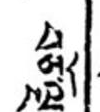བཅོ་ལྔ་
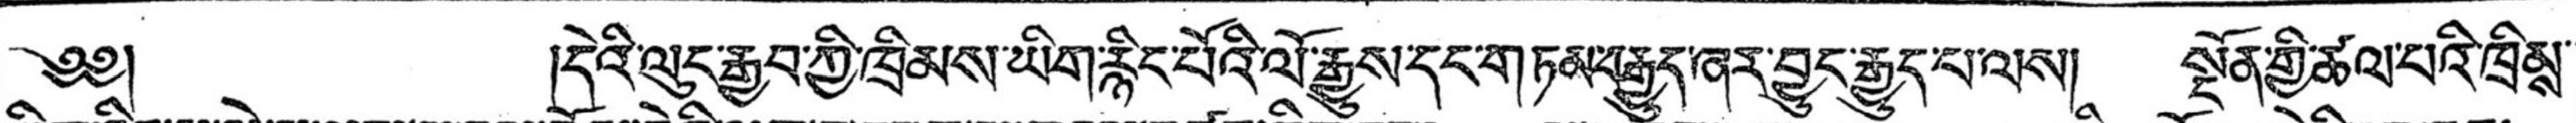༄༅། །དེའི་ལུང་རྒྱབ་ཀྱི་ཁྲིམས་ཡིག་རྙིང་པོའི་ལོ་རྒྱུས་དང་གཏམ་རྒྱུད་ཞར་བྱུང་རྒྱུད་པ་ལས། སྔོན་གྱི་ཚལ་པའི་ཁྲིམས་་
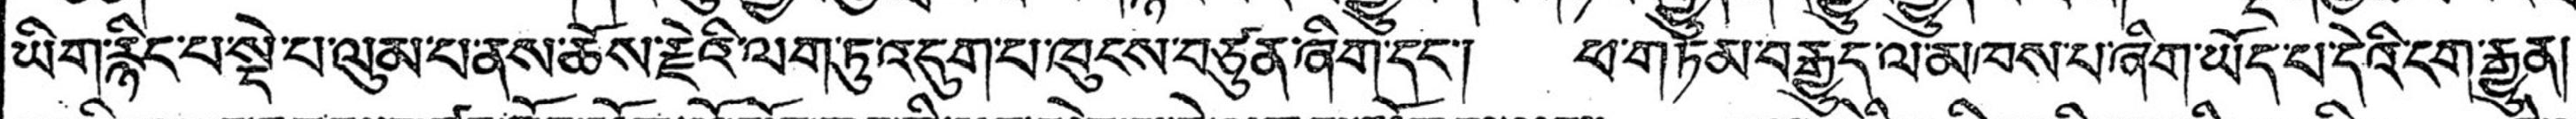ཡིག་རྙིང་པ་སྡེ་པ་ལུམ་པ་ནས་ཆོས་རྗེའི་ལག་ཏུ་འདུག་པ་ཁུངས་བཙུན་ཞིག་དང་། ཕ་གཏམ་བརྒྱུད་ལ་མཁས་པ་ཞིག་ཡོད་པ་དེའི་ངག་རྒྱུན།
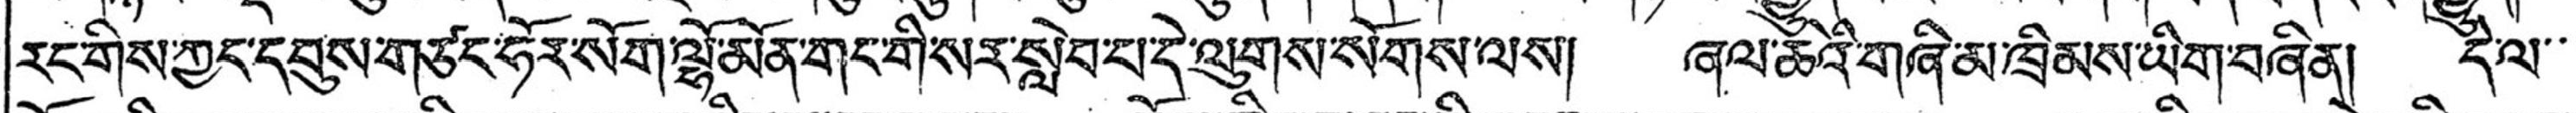རང་གིས་ཀྱང་དབུས་གཙང་ཧོར་སོག་ལྷོ་མོན་གང་གི་སར་སླེབ་པ་དེ་ལུགས་སོགས་ལས། ཞལ་ཆེའི་གཞི་མ་ཁྲིམས་ཡིག་བཞིན། དེ་ལ་་་
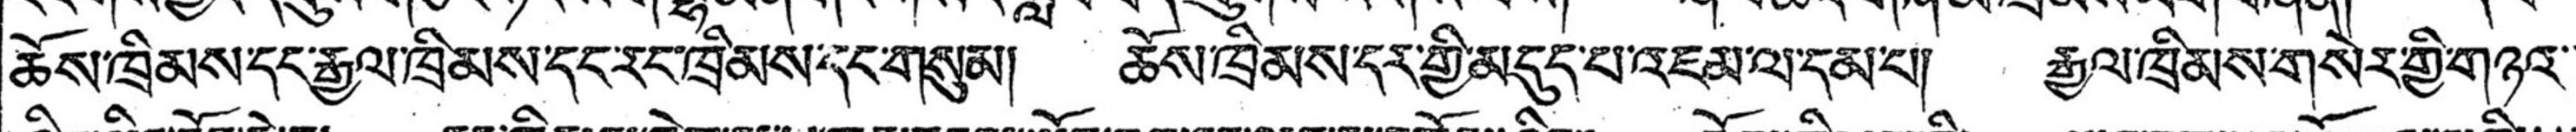ཆོས་ཁྲིམས་དང་རྒྱལ་ཁྲིམས་དང་རང་ཁྲིམས་དང་གསུམ། ཆོས་ཁྲིམས་དར་གྱི་མདུད་པ་འཇམ་ལ་དམ་པ། རྒྱལ་ཁྲིམས་གསེར་གྱི་གཉའ་་
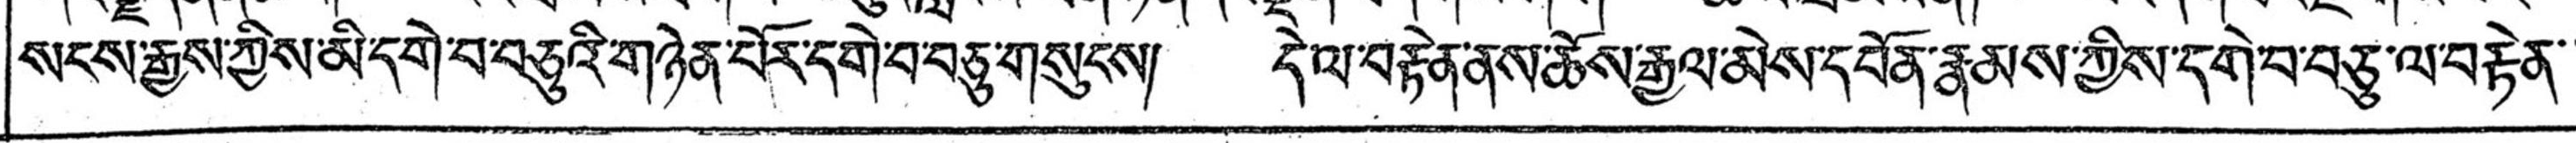སངས་རྒྱས་ཀྱིས་མི་དགེ་བ་བཅུའི་གཉེན་པོར་དགེ་བ་བཅུ་གསུངས། དེ་ལ་བརྟེན་ནས་ཆོས་རྒྱལ་མེས་དབོན་རྣམས་ཀྱིས་དགེ་བ་བཅུ་ལ་བརྟེན་་
